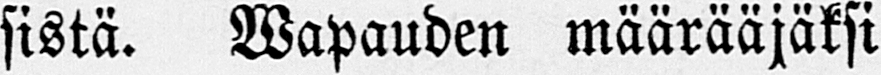sistä. Wapauden määrääjäksi
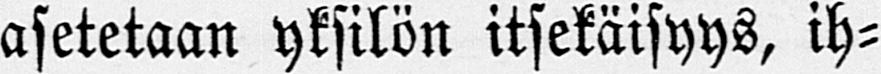asetetaan yksilön itsekäisyys, ih-
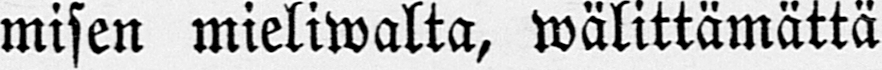misen mieliwalta, wälittämättä
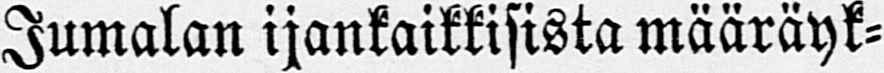Jumalan ijankaikkisista määräyk-
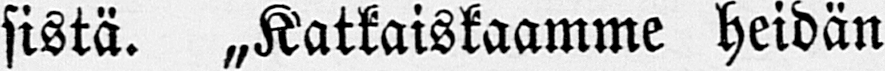sistä. „Katkaiskaamme heidän
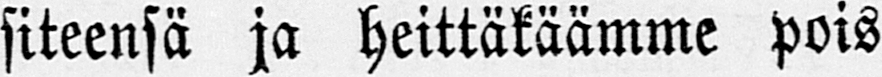siteensä ja heittäkäämme pois
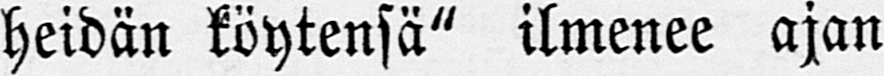heidän köytensä" ilmenee ajan
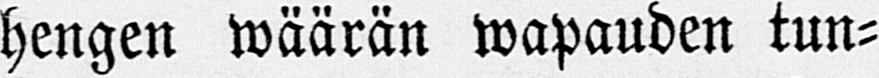hengen wäärän wapauden tun-
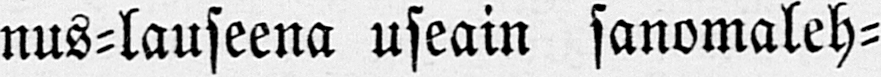nus-lauseena useain sanomaleh-
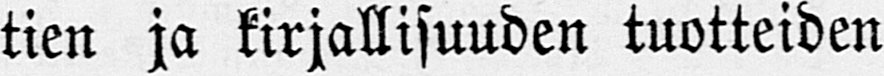tien ja kirjallisuuden tuotteiden
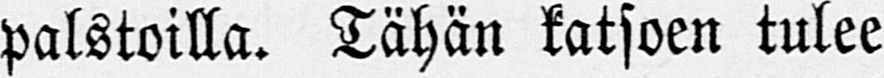palstoilla. Tähän katsoen tulee
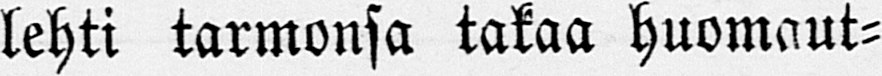lehti tarmonsa takaa huomaut-
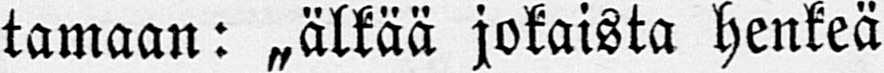tamaan: „älkää jokaista henkeä
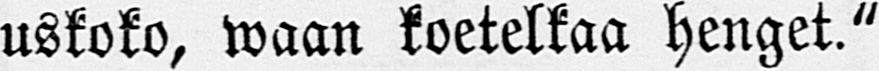uskoko, waan koetelkaa henget."
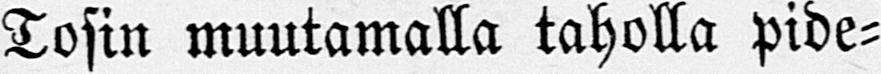Tosin muutamalla taholla pide-
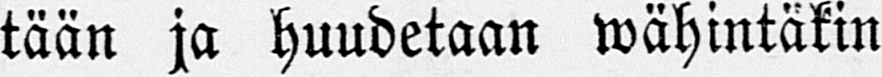tään ja huudetaan wähintäkin
